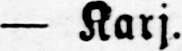— Karj.
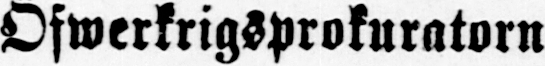Öfwerkrigsprokuratorn
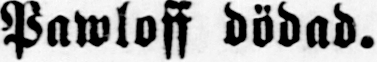Pawloff dödad.
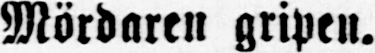Mördaren gripen.
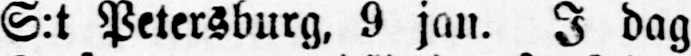S:t Petersburg, 9 jan. I dag
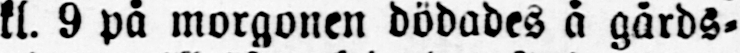kl. 9 på morgonen dödades å gårds-
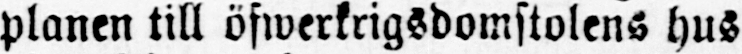planen till öfwerkrigsdomstolens hus
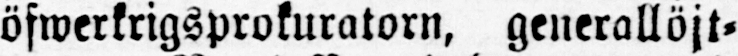öfwerkrigsprokuratorn, generallöjt-
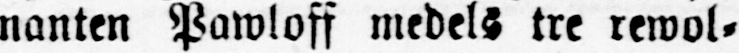nanten Pawloff medels tre rewol-
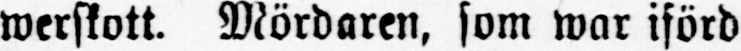werskott. Mördaren, som war iförd
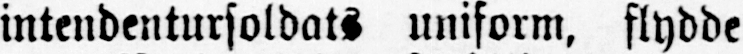intendentursoldats uniform, flydde
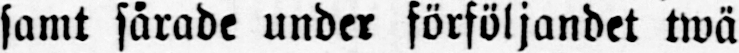samt sårade under förföljandet twä
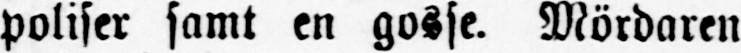poliser samt en gosse. Mördaren
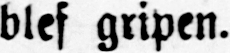blef gripen.
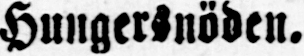Hungersnöden.
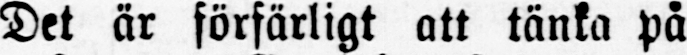Det är förfärligt att tänka på
